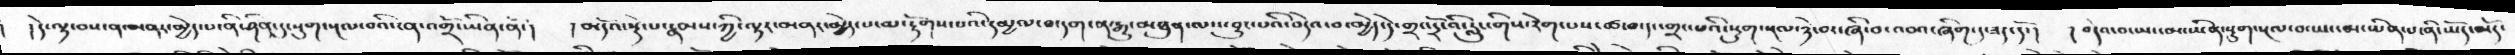།དེ་ལྟ་བས་ན་མནར་མྱེད་པ་ནི་ཤིན་དུ་སྡུག་སྔལ་བའི་ངན་འགྲོ་ཡིན་ནོ་།   །མདོའ་སྡེ་པ་རྣམས་ཀྱི་ལྟར་མནར་མྱེད་པ་མ་རྟོགས་པའི་དམྱལ་བ་དག་ན་རྒྱུ་མཐུན་ལས་བྱུང་པའི་བདེའ་བ་མྱེད་དེ་གྲང་དྲོ་འི་རླུང་གིས་རེག་པས་ཚ་བ་དང་གྲང་པའི་སྡུག་སྔལ་ཉེ་བར་ཞི་བ་འབའ་ཞིག་དུ་ཟད་དོ་།   །བདེའ་བ་ཡང་མ་ཡིན་སྡུག་སྔལ་བ་ཡང་མ་ཡིན་པ་ནི་ཡོད་མོད་
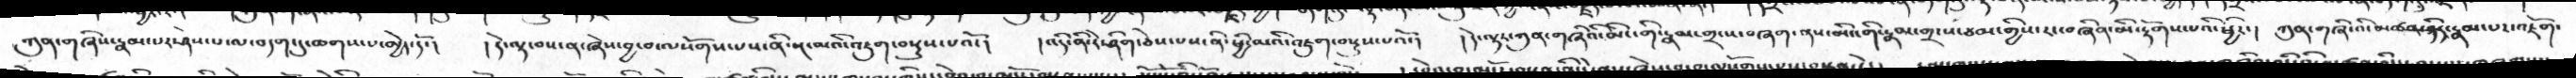ཀུན་གཞིས་རྣམ་པར་ཤེས་པ་ལ་བདག་དུ་ཆགས་པ་མྱེད་དོ་།    །དེ་ལྟ་བས་ན་ཞེས་བྱ་བ་ལསོགས་པས་ནི་སྔ་མའི་འཇུག་བསྡུས་པའོ་།   །འདི་ནི་རེ་ཤིག་ཅེས་པས་ནི་ཕྱི་མའི་འཇུག་བསྡུས་པའོ་།   །དེ་ལྟར་ཀུན་གཞིའི་མིང་གི་རྣམ་གྲངས་བཞག་ནས་མིང་གི་རྣམ་གྲངས་ཙམ་གྱིས་རང་བཞིན་མི་རྟོགས་པའི་ཕྱིར་།   ཀུན་གཞི་འི་མཚན་ཉིད་རྣམ་པར་འཇོག་
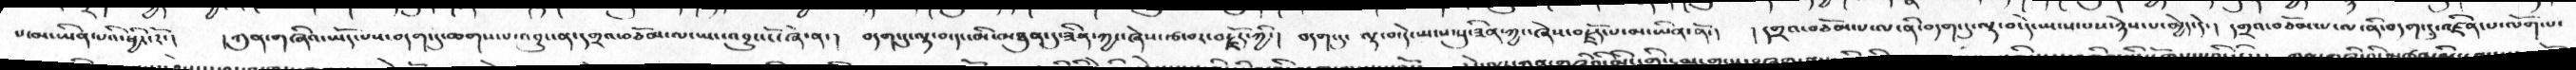པ་མ་ཡིན་པའི་ཕྱིར་རོ་།  །ཀུན་གཞིའ་ཡོད་པས་བདག་དུ་ཆགས་པ་འབྱུང་ན་དགྲའ་བཅོམ་ལ་ཡང་འབྱུང་ངོ་ཞེ་ན་།   བདག་དུ་ལྟ་བ་དང་མི་མཐུན་དུ་ཟིན་ཀྱང་ཞེས་རྩ་བར་བརྗོད་ཀྱི་།  བདག་དུ་  ལྟ་བ་དེ་ཡངས་སུ་ཟིན་ཀྱང་ཞེས་བརྗོད་པ་མ་ཡིན་ནོ་།   །དགྲའ་བཅོམ་པ་ལ་ནི་བདག་དུ་ལྟ་བ་དེ་སྤངས་པས་ཉེས་པ་མྱེད་དེ་།  དགྲའ་བཅོམ་པ་ལ་ནི་བདག་དུ་འཛིན་པ་ལོག་པ་
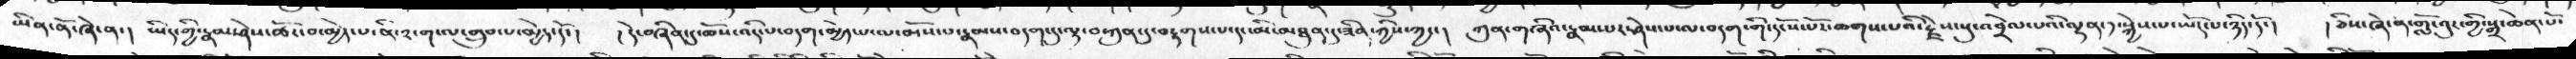ཡིན་ནོ་ཞེ་ན་།  ཡིད་གྱི་རྣམ་ཤེས་ཚོར་བ་མྱེད་པ་ནི་༢་ག་ལ་གྲུབ་པ་མྱེད་དོ་།   །དེ་བཞིན་དུ་ཆོས་འདི་པ་བདག་མྱེད་པ་ལ་མོས་པ་རྣམས་བདག་དུ་ལྟ་བ་ཀུན་དུ་བརྟགས་པ་དང་མི་མཐུན་དུ་ཟིན་ཀྱིས་ཀྱང་།   ཀུན་གཞིའ་རྣམ་པར་ཤེས་པ་ལ་བདག་གི་དངོས་པོར་ཆགས་པའི་རྗེས་སུ་འབྲེལ་པའི་ལྷན་༡་སྐྱེས་པ་ཡོད་པ་ཉིད་དོ་།   །ཅིས་ཞེ་ན་གློ་བུར་གྱི་སྒྲ་ཆེན་པོ་
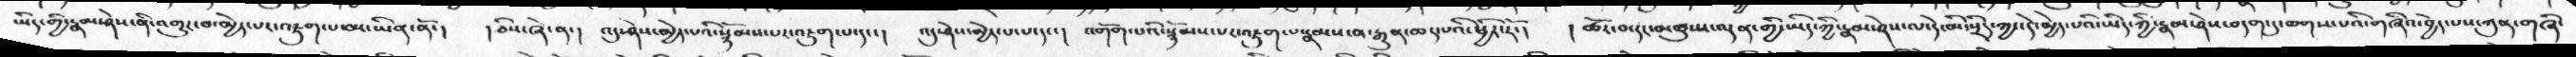ཡིད་གྱི་རྣམ་ཤེས་ནི་འགྱུར་བ་མྱེད་པར་འཇུག་པ་མ་ཡིན་ནོ་།   །ཅིས་ཞེ་ན་།  འདུ་ཤེས་མྱེད་པའི་སྙོམས་པར་འཇུག་པ་དང་།   འདུ་ཤེས་མྱེད་པ་པ་དང་།   འགོག་པའི་སྙོམས་པར་འཇུག་པ་རྣམས་ན་རྒྱུན་ཆད་པའི་ཕྱིར་རོ་།   །ཚོར་བ་དང་མཚུངས་ལྡན་གྱི་ཡིད་ཀྱི་རྣམ་ཤེས་ལ་དེ་མི་སྲིད་ཀྱང་དེ་མྱེད་པའི་ཡིད་ཀྱི་རྣམ་ཤེས་བདག་དུ་ཆགས་པའི་གཞིའ་བྱེད་པས་ཀུན་གཞི་
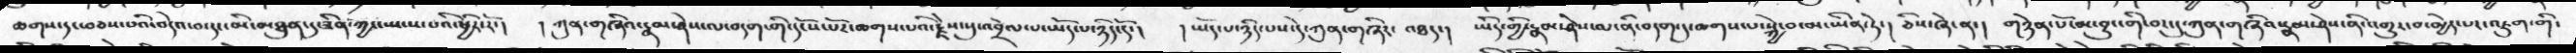ཆགས་དང་བཅས་པའི་བདེའ་བ་དང་མི་མཐུན་དུ་ཟིན་ཀྱང་སྤངས་པའི་ཕྱིར་རོ་།  །ཀུན་གཞིའ་རྣམ་ཤེས་ལ་བདག་གི་དངོས་པོར་ཆགས་པའི་རྗེས་སུ་འབྲེལ་པ་ཡོད་པ་ཉིད་དོ་།  །ཡོད་པ་ཉིད་པས་དེ་ཀུན་གཞིར་ འཐད་།  ཡིད་ཀྱི་རྣམ་ཤེས་ལ་ནི་བདག་དུ་ཆགས་པ་སྐྱེ་བ་མ་ཡིན་ཏེ་།  ཅིས་ཞེ་ན་།  གཉེན་པོ་མ་བྱུང་གི་བར་དུ་ཀུན་གཞིའ་རྣམ་ཤེས་ནི་འགྱུར་བ་མྱེད་པར་འཇུག་གི་
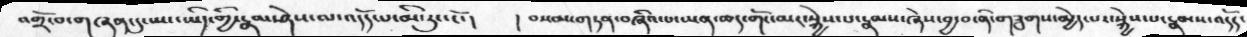འགྲོ་བ་གཞན་དུ་ཡང་ཡིད་གྱི་རྣམ་ཤེས་ལ་འདོད་པ་མི་རུང་ངོ་།  །བསམ་གཏན་བཞིའ་པ་ཡན་ཆད་གོང་མར་སྐྱེས་པ་རྣམས་ཞེས་བྱ་བ་ནི་གཟུགས་མྱེད་པར་སྐྱེས་པ་རྣམས་འདོད་
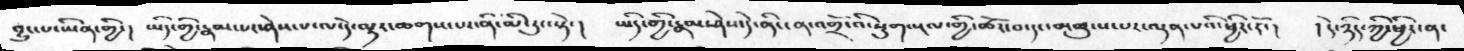བྱུང་པ་ཡིན་གྱི་།  ཡིད་གྱི་རྣམ་པར་ཤེས་པ་ལ་དེ་ལྟར་ཆགས་པ་ནི་མི་རུང་སྟེ་།  ཡིད་གྱི་རྣམ་ཤེས་དེ་ནི་ངན་འགྲོ་འི་སྡུག་སྔལ་གྱི་ཚོར་བ་དང་མཚུངས་པར་ལྡན་པའི་ཕྱིར་རོ་།  །དེ་ཉིད་ཀྱི་ཕྱིར་ན་
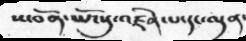ས་བོན་ཡོངསུ་འཛིན་པ་དང་ལྡན་
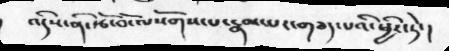འདིས་ནི་རྩོ་བོ་ལསོགས་པ་རྣམ་པར་གཅད་པའི་ཕྱིར་ཏེ་།
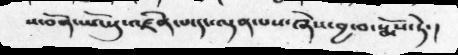ས་བོན་ཡོངསུ་འཛིན་པ་དང་ལྡན་པས་ཞེས་བྱ་བ་སྨོས་ཏེ་།
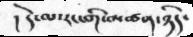། དེ་ལ་རང་གི་མཚན་ཉིད་
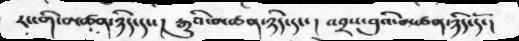རང་གི་མཚན་ཉིད་དང་།  རྒྱུའི་མཚན་ཉིད་དང་།  འབྲས་བུའི་མཚན་ཉིད་དོ་།
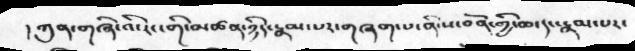།ཀུན་གཞི་འི་རང་གི་མཚན་ཉིད་རྣམ་པར་གཞག་པ་ནི་ས་བོན་གྱི་ཆ་དང་རྣམ་པར་
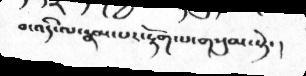བ་འདི་ལ་རྣམ་པར་རྟོག་པ་གསུམ་སྟེ་།
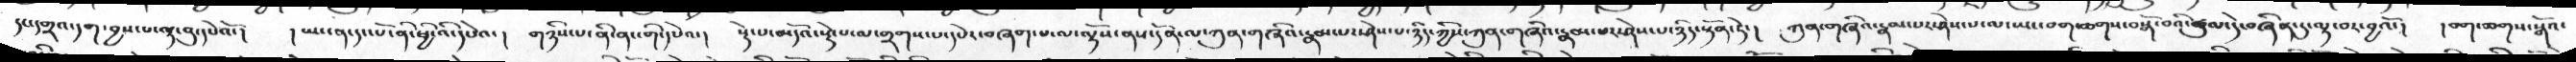དང་དགྲའ་དག་བྱས་པ་ལྟ་བུ་དཔེའོ་།  །ཡང་ན་དང་པོ་ནི་ཕྱི་འི་དཔེའ་།  གཉིས་པ་ནི་ནང་གི་དཔེའ་།  སྡེ་པ་མདོའ་སྡེ་པ་ལ་གྲགས་པ་དཔེར་བཞག་པ་ལ་ལྟོས་ནས་དོན་ལ་ཀུན་གཞིའ་རྣམ་པར་ཤེས་པ་ཉིད་ཀྱིས་ཀུན་གཞིའ་རྣམ་པར་ཤེས་པ་ཉིད་སྟོན་ཏེ་།  ཀུན་གཞིའ་རྣམ་པར་ཤེས་པ་ལ་ཡང་བག་ཆགས་བསྒོ་བའི་ཚུལ་དེ་བཞིན་དུ་ལྟ་བར་བྱའོ་།  །བག་ཆགས་སྒོའ་
